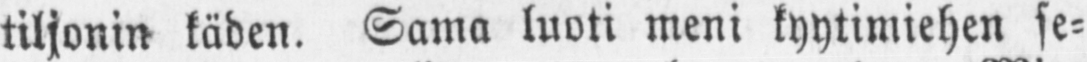tiljonin käden. Sama luoti meni kyytimiehen se-
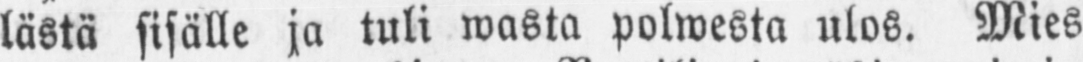lästä sisälle ja tuli wasta polwesta ulos. Mies
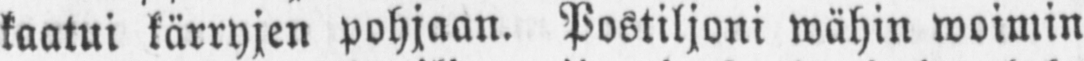kaatui kärryjen pohjaan. Postiljoni wähin woimin
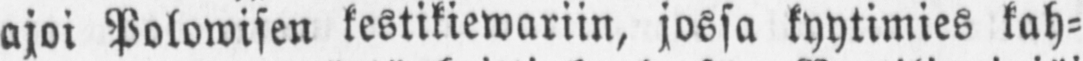ajoi Polowisen kestikiewariin, jossa kyytimies kah-
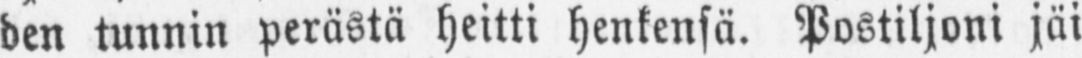den tunnin perästä heitti henkensä. Postiljoni jäi
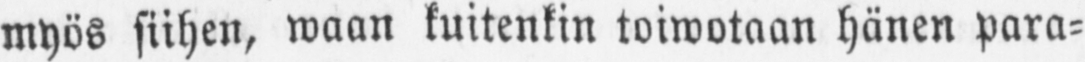myös siihen, waan kuitenkin toiwotaan hänen para-
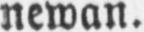newan.
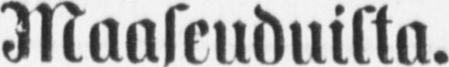Maaseuduilta.
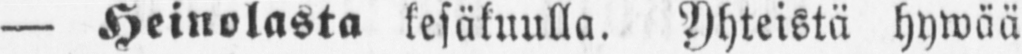— Heinolasta kesäkuulla. Yhteistä hywää
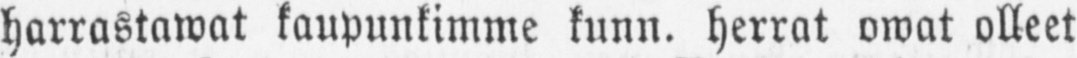harrastawat kaupunkimme kunn. herrat owat olleet
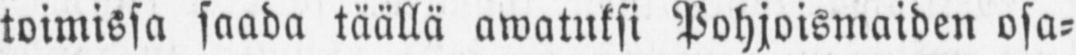toimissa saada täällä awatuksi Pohjoismaiden osa-
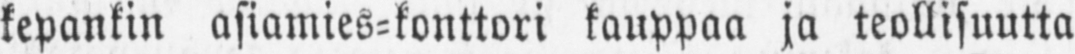kepankin asiamies-konttori kauppaa ja teollisuutta
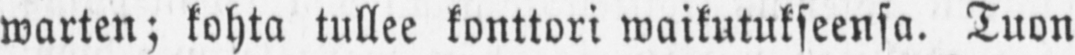warten; kohta tullee konttori waikutukseensa. Tuon
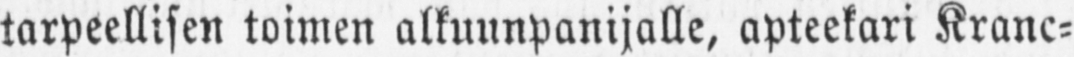tarpeellisen toimen alkuunpanijalle, apteekari Kranc-
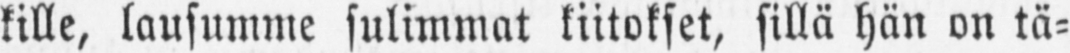kille, lausumme sulimmat kiitokset, sillä hän on tä-
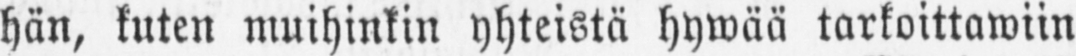hän, kuten muihinkin yhteistä hywää tarkoittawiin
